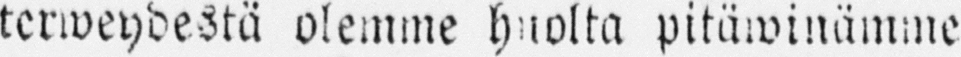terweydestä olemme huolta pitäwinämme
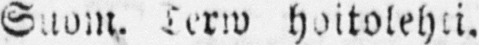Suom. Terw hoitolehti.
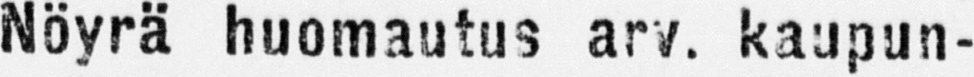Nöyrä huomautus arv. kaupun-
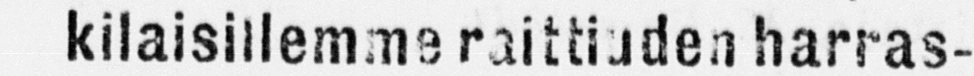kilaisillmme raittiuden harras-
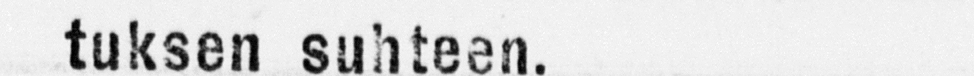tuksen suhteen.
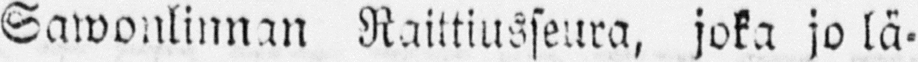Sawonlinnan Raittiusseura, joka jo lä-
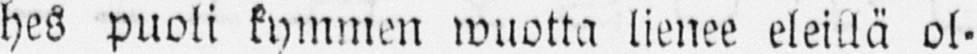hes puoli kymmen wuotta lienee eleillä ol-
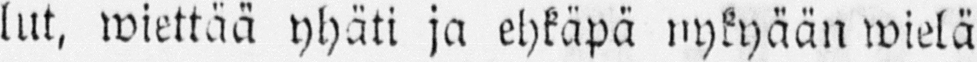lut, wiettää yhäti ja ehkäpä nykyään wielä
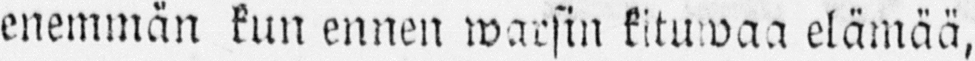enemmän kun ennen warsin kituwaa elämää,
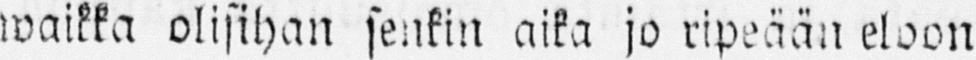waikka olisihan senkin aika jo ripeään eloon
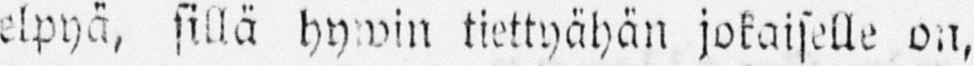elpyä, sillä hywin tiettyähän jokaiselle on,
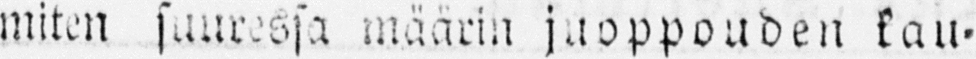miten suuressa määrin juoppouden kau-
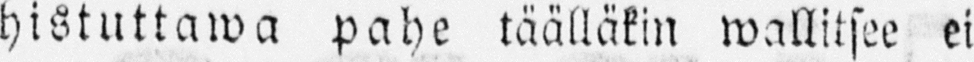histuttawa pahe täälläkin wallitsee ei
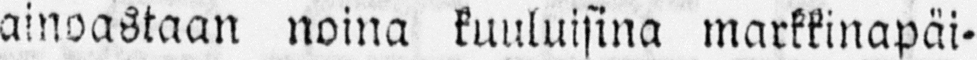ainoastaan noina kuuluisina markkinapäi-
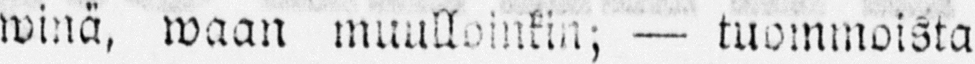winä, waan muulloinkin; — tuommoista
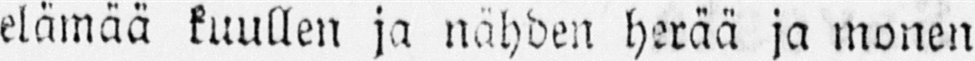elämää kuullen ja nähden herää ja monen
